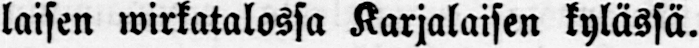laisen wirkatalossa Karjalaisen kylässä.
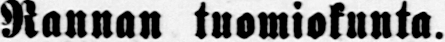Rannan tuomiokunta.
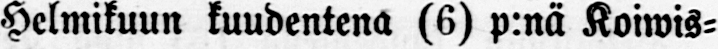Helmikuun kuudentena (6) p:nä Koiwis-
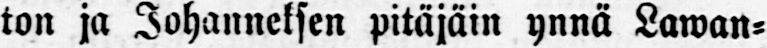ton ja Johanneksen pitäjäin ynnä Lawan-
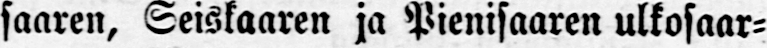saaren, Seiskaaren ja Pienisaaren ulkosaar-
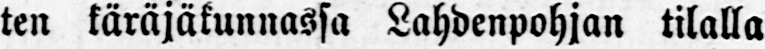ten käräjäkunnassa Lahdenpohjan tilalla
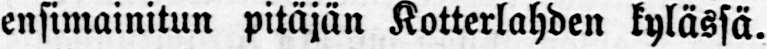ensimainitun pitäjän Kotterlahden kylässä.
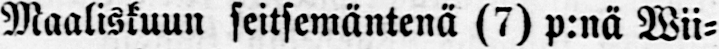Maaliskuun seitsemäntenä (7) p:nä Wii-
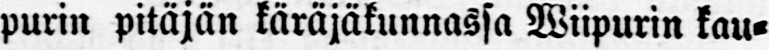purin pitäjän käräjäkunnassa wiipurin kau-
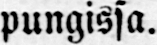pungissa.
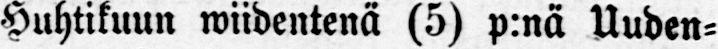Huhtikuun wiidentenä (5) p:nä Uuden-
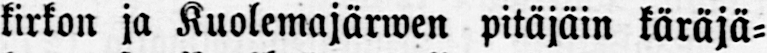kirkon ja Kuolemajärwen pitäjäin käräjä-
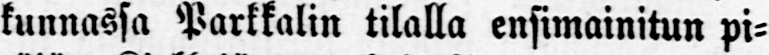kunnassa Parkkalin tilalla ensimainitun pi-
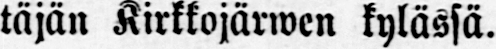täjän Kirkkojärwen kylässä.
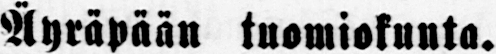Äyräpään tuomiokuuta.
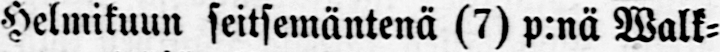Helmikuun seitsemäntenä (7) p:nä Walk-
